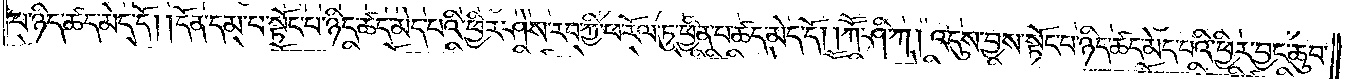པ་ཉིད་ཚད་མེད་དོ། །དོན་དམ་པ་སྟོང་པ་ཉིད་ཚད་མེད་པའི་ཕྱིར་ཤེས་རབ་ཀྱི་ཕ་རོལ་ཏུ་ཕྱིན་པ་ཚད་མེད་དོ། །ཀཽ་ཤི་ཀ། འདུས་བྱས་སྟོང་པ་ཉིད་ཚད་མེད་པའི་ཕྱིར་བྱང་ཆུབ་
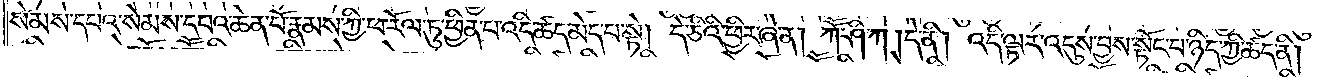སེམས་དཔའ་སེམས་དཔའ་ཆེན་པོ་རྣམས་ཀྱི་ཕ་རོལ་ཏུ་ཕྱིན་པ་འདི་ཚད་མེད་པ་སྟེ། དེ་ཅིའི་ཕྱིར་ཞེ་ན། ཀཽ་ཤི་ཀ །དེ་ནི། འདི་ལྟར་འདུས་བྱས་སྟོང་པ་ཉིད་ཀྱི་ཚད་ནི།
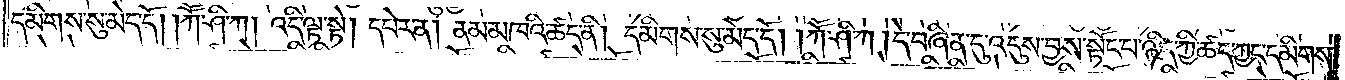དམིགས་སུ་མེད་དོ། །ཀཽ་ཤི་ཀ། འདི་ལྟ་སྟེ། དཔེར་ན། ནམ་མཁའི་ཚད་ནི། དམིགས་སུ་མེད་དོ། །ཀཽ་ཤི་ཀ །དེ་བཞིན་དུ་འདུས་བྱས་སྟོང་པ་ཉིད་ཀྱི་ཚད་ཀྱང་དམིགས་
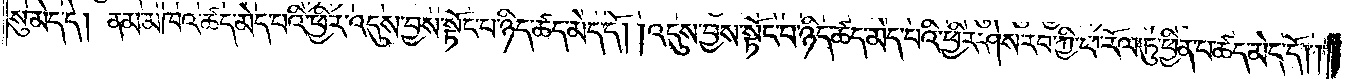སུ་མེད་དེ། ནམ་མཁའ་ཚད་མེད་པའི་ཕྱིར་འདུས་བྱས་སྟོང་པ་ཉིད་ཚད་མེད་དོ། །འདུས་བྱས་སྟོང་པ་ཉིད་ཚད་མེད་པའི་ཕྱིར་ཤེས་རབ་ཀྱི་ཕ་རོལ་ཏུ་ཕྱིན་པ་ཚད་མེད་དོ༎
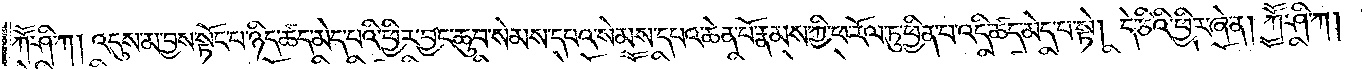ཀཽ་ཤི་ཀ། འདུས་མ་བྱས་སྟོང་པ་ཉིད་ཚད་མེད་པའི་ཕྱིར་བྱང་ཆུབ་སེམས་དཔའ་སེམས་དཔའ་ཆེན་པོ་རྣམས་ཀྱི་ཕ་རོལ་ཏུ་ཕྱིན་པ་འདི་ཚད་མེད་པ་སྟེ། དེ་ཅིའི་ཕྱིར་ཞེ་ན། ཀཽ་ཤི་ཀ།
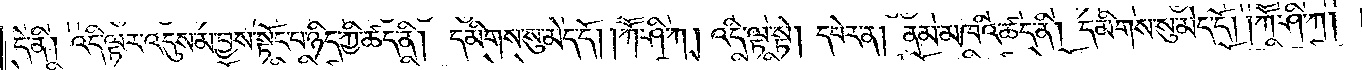དེ་ནི། འདི་ལྟར་འདུས་མ་བྱས་སྟོང་པ་ཉིད་ཀྱི་ཚད་ནི། དམིགས་སུ་མེད་དོ། །ཀཽ་ཤི་ཀ། འདི་ལྟ་སྟེ། དཔེར་ན། ནམ་མཁའི་ཚད་ནི། དམིགས་སུ་མེད་དོ། །ཀཽ་ཤི་ཀ།
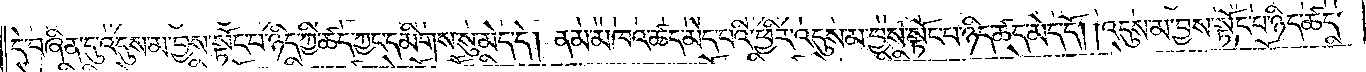དེ་བཞིན་དུ་འདུས་མ་བྱས་སྟོང་པ་ཉིད་ཀྱི་ཚད་ཀྱང་དམིགས་སུ་མེད་དེ། ནམ་མཁའ་ཚད་མེད་པའི་ཕྱིར་འདུས་མ་བྱས་སྟོང་པ་ཉིད་ཚད་མེད་དོ། །འདུས་མ་བྱས་སྟོང་པ་ཉིད་ཚད་
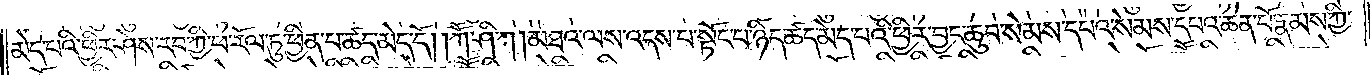མེད་པའི་ཕྱིར་ཤེས་རབ་ཀྱི་ཕ་རོལ་ཏུ་ཕྱིན་པ་ཚད་མེད་དོ། །ཀཽ་ཤི་ཀ། མཐའ་ལས་འདས་པ་སྟོང་པ་ཉིད་ཚད་མེད་པའི་ཕྱིར་བྱང་ཆུབ་སེམས་དཔའ་སེམས་དཔའ་ཆེན་པོ་རྣམས་ཀྱི་
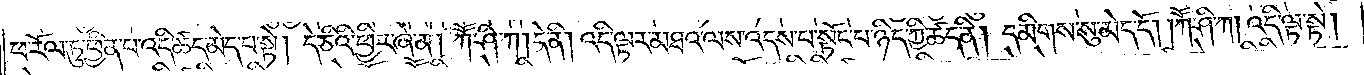ཕ་རོལ་ཏུ་ཕྱིན་པ་འདི་ཚད་མེད་པ་སྟེ། དེ་ཅིའི་ཕྱིར་ཞེ་ན། ཀཽ་ཤི་ཀ། དེ་ནི། འདི་ལྟར་མཐའ་ལས་འདས་པ་སྟོང་པ་ཉིད་ཀྱི་ཚད་ནི། དམིགས་སུ་མེད་དོ། །ཀཽ་ཤི་ཀ། འདི་ལྟ་སྟེ།
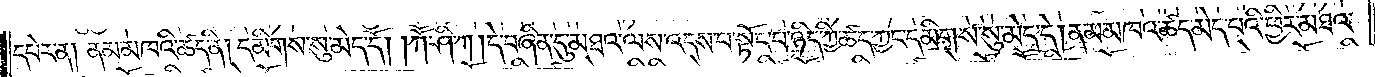དཔེར་ན། ནམ་མཁའི་ཚད་ནི། དམིགས་སུ་མེད་དོ། །ཀཽ་ཤི་ཀ། དེ་བཞིན་དུ་མཐའ་ལས་འདས་པ་སྟོང་པ་ཉིད་ཀྱི་ཚད་ཀྱང་དམིགས་སུ་མེད་དེ། ནམ་མཁའ་ཚད་མེད་པའི་ཕྱིར་མཐའ་
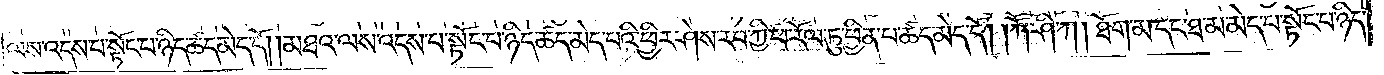ལས་འདས་པ་སྟོང་པ་ཉིད་ཚད་མེད་དོ། །མཐའ་ལས་འདས་པ་སྟོང་པ་ཉིད་ཚད་མེད་པའི་ཕྱིར་ཤེས་རབ་ཀྱི་ཕ་རོལ་ཏུ་ཕྱིན་པ་ཚད་མེད་དོ། །ཀཽ་ཤི་ཀ། ཐོག་མ་དང་ཐ་མ་མེད་པ་སྟོང་པ་ཉིད་
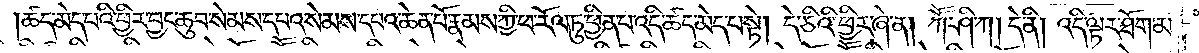ཚད་མེད་པའི་ཕྱིར་བྱང་ཆུབ་སེམས་དཔའ་སེམས་དཔའ་ཆེན་པོ་རྣམས་ཀྱི་ཕ་རོལ་ཏུ་ཕྱིན་པ་འདི་ཚད་མེད་པ་སྟེ། དེ་ཅིའི་ཕྱིར་ཞེ་ན། ཀཽ་ཤི་ཀ། དེ་ནི། འདི་ལྟར་ཐོག་མ་
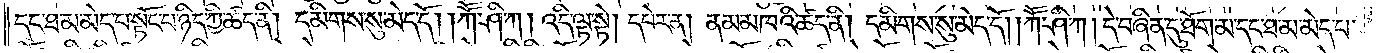དང་ཐ་མ་མེད་པ་སྟོང་པ་ཉིད་ཀྱི་ཚད་ནི། དམིགས་སུ་མེད་དོ། །ཀཽ་ཤི་ཀ། འདི་ལྟ་སྟེ། དཔེར་ན། ནམ་མཁའི་ཚད་ནི། དམིགས་སུ་མེད་དོ། །ཀཽ་ཤི་ཀ། དེ་བཞིན་དུ་ཐོག་མ་དང་ཐ་མ་མེད་པ་
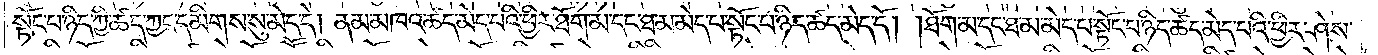སྟོང་པ་ཉིད་ཀྱི་ཚད་ཀྱང་དམིགས་སུ་མེད་དེ། ནམ་མཁའ་ཚད་མེད་པའི་ཕྱིར་ཐོག་མ་དང་ཐ་མ་མེད་པ་སྟོང་པ་ཉིད་ཚད་མེད་དོ། །ཐོག་མ་དང་ཐ་མ་མེད་པ་སྟོང་པ་ཉིད་ཚད་མེད་པའི་ཕྱིར་ཤེས་
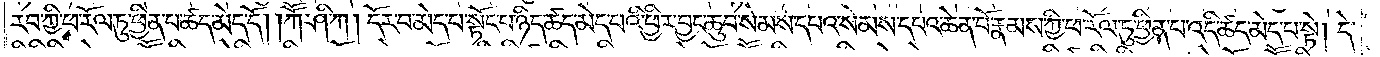རབ་ཀྱི་ཕ་རོལ་ཏུ་ཕྱིན་པ་ཚད་མེད་དོ། །ཀཽ་ཤི་ཀ། དོར་བ་མེད་པ་སྟོང་པ་ཉིད་ཚད་མེད་པའི་ཕྱིར་བྱང་ཆུབ་སེམས་དཔའ་སེམས་དཔའ་ཆེན་པོ་རྣམས་ཀྱི་ཕ་རོལ་ཏུ་ཕྱིན་པ་འདི་ཚད་མེད་པ་སྟེ། དེ་
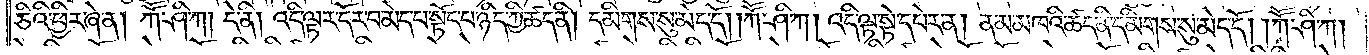ཅིའི་ཕྱིར་ཞེ་ན། ཀཽ་ཤི་ཀ། དེ་ནི། འདི་ལྟར་དོར་བ་མེད་པ་སྟོང་པ་ཉིད་ཀྱི་ཚད་ནི། དམིགས་སུ་མེད་དོ། །ཀཽ་ཤི་ཀ། འདི་ལྟ་སྟེ་དཔེར་ན། ནམ་མཁའི་ཚད་ནི་དམིགས་སུ་མེད་དོ། །ཀཽ་ཤི་ཀ།
